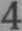4
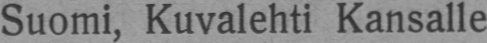Suomi, Kuvalehti Kansalle.
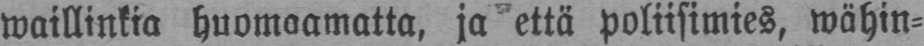waillinkia huomaamatta, ja että poliisimies, wähin-
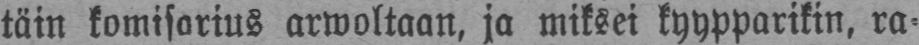täin komisarius arwoltaan, ja miksei kyypparikin, ra-
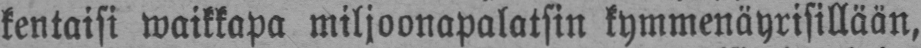kentaisi waikkapa miljoonapalatsin kymmenäyrisillään,
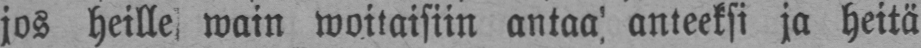jos heille, wain woitaisiin antaa anteeksi ja heitä
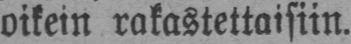oikein rakastettaisiin.
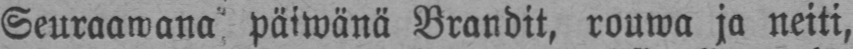Seuraawana päiwänä Brandit, rouwa ja neiti,
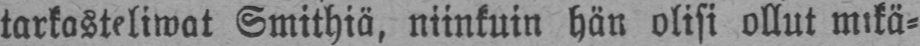tarkasteliwat Smithiä, niinkuin hän olisi ollut mikä-
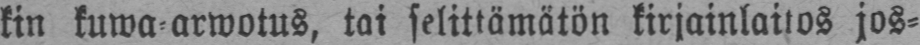kin kuwa-arwotus, tai selittämätön kirjainlaitos jos-
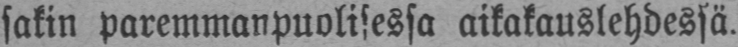sakin paremmanpuolisessa aikakauslehdessä.
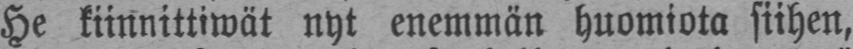He kiinnittiwät nyt enemmän huomiota siihen,
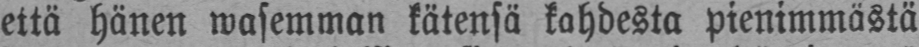että hänen wasemman kätensä kahdesta pienimmästä
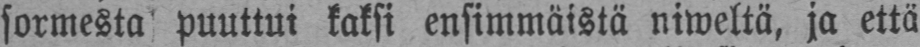sormesta puuttui kaksi ensimmäistä niweltä, ja että
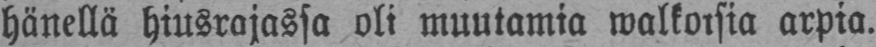hänellä hiusrajassa oli muutamia walkoisia arpia.
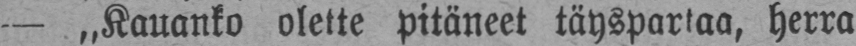— „Kauanko olette pitäneet täyspartaa, herra
